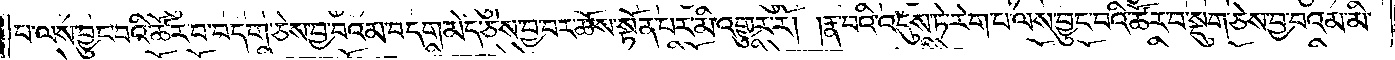པ་ལས་བྱུང་བའི་ཚོར་བ་བདག་ཅེས་བྱ་བའམ་བདག་མེད་ཅེས་བྱ་བར་ཆོས་སྟོན་པར་མི་འགྱུར་རོ། །རྣ་བའི་འདུས་ཏེ་རེག་པ་ལས་བྱུང་བའི་ཚོར་བ་སྡུག་ཅེས་བྱ་བའམ་མི་
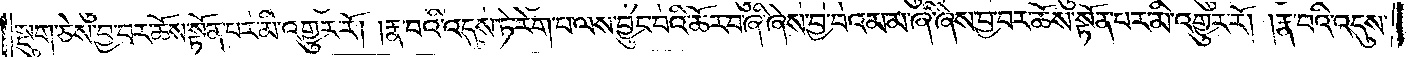སྡུག་ཅེས་བྱ་བར་ཆོས་སྟོན་པར་མི་འགྱུར་རོ། །རྣ་བའི་འདུས་ཏེ་རེག་པ་ལས་བྱུང་བའི་ཚོར་བ་ཞི་ཞེས་བྱ་བའམ་མ་ཞི་ཞེས་བྱ་བར་ཆོས་སྟོན་པར་མི་འགྱུར་རོ། །རྣ་བའི་འདུས་
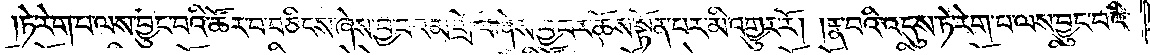ཏེ་རེག་པ་ལས་བྱུང་བའི་ཚོར་བ་བཅིངས་ཞེས་བྱ་བའམ་གྲོལ་ཞེས་བྱ་བར་ཆོས་སྟོན་པར་མི་འགྱུར་རོ། །རྣ་བའི་འདུས་ཏེ་རེག་པ་ལས་བྱུང་བའི་
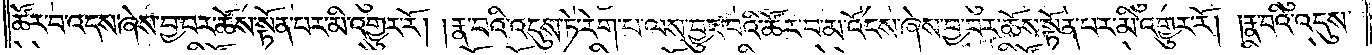ཚོར་བ་འདས་ཞེས་བྱ་བར་ཆོས་སྟོན་པར་མི་འགྱུར་རོ། །རྣ་བའི་འདུས་ཏེ་རེག་པ་ལས་བྱུང་བའི་ཚོར་བ་མ་འོངས་ཞེས་བྱ་བར་ཆོས་སྟོན་པར་མི་འགྱུར་རོ། །རྣ་བའི་འདུས་
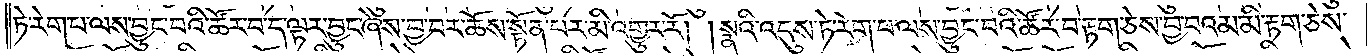ཏེ་རེག་པ་ལས་བྱུང་བའི་ཚོར་བ་ད་ལྟར་བྱུང་ཞེས་བྱ་བར་ཆོས་སྟོན་པར་མི་འགྱུར་རོ། །སྣའི་འདུས་ཏེ་རེག་པ་ལས་བྱུང་བའི་ཚོར་བ་རྟག་ཅེས་བྱ་བའམ་མི་རྟག་ཅེས་
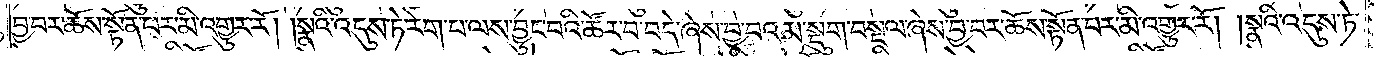བྱ་བར་ཆོས་སྟོན་པར་མི་འགྱུར་རོ། །སྣའི་འདུས་ཏེ་རེག་པ་ལས་བྱུང་བའི་ཚོར་བ་བདེ་ཞེས་བྱ་བའམ་སྡུག་བསྔལ་ཞེས་བྱ་བར་ཆོས་སྟོན་པར་མི་འགྱུར་རོ། །སྣའི་འདུས་ཏེ་
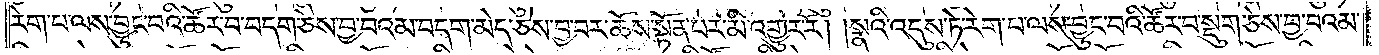རེག་པ་ལས་བྱུང་བའི་ཚོར་བ་བདག་ཅེས་བྱ་བའམ་བདག་མེད་ཅེས་བྱ་བར་ཆོས་སྟོན་པར་མི་འགྱུར་རོ། །སྣའི་འདུས་ཏེ་རེག་པ་ལས་བྱུང་བའི་ཚོར་བ་སྡུག་ཅེས་བྱ་བའམ་
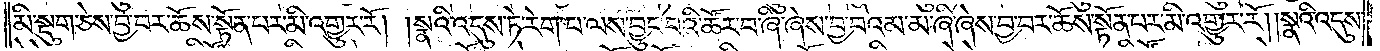མི་སྡུག་ཅེས་བྱ་བར་ཆོས་སྟོན་པར་མི་འགྱུར་རོ། །སྣའི་འདུས་ཏེ་རེག་པ་ལས་བྱུང་བའི་ཚོར་བ་ཞི་ཞེས་བྱ་བའམ་མ་ཞི་ཞེས་བྱ་བར་ཆོས་སྟོན་པར་མི་འགྱུར་རོ། །སྣའི་འདུས་
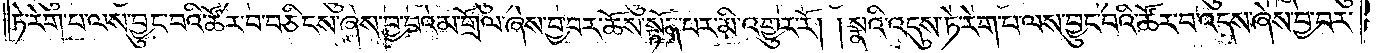ཏེ་རེག་པ་ལས་བྱུང་བའི་ཚོར་བ་བཅིངས་ཞེས་བྱ་བའམ་གྲོལ་ཞེས་བྱ་བར་ཆོས་སྟོན་པར་མི་འགྱུར་རོ། །སྣའི་འདུས་ཏེ་རེག་པ་ལས་བྱུང་བའི་ཚོར་བ་འདས་ཞེས་བྱ་བར་
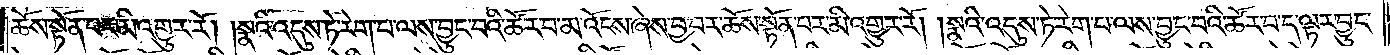ཆོས་སྟོན་པར་མི་འགྱུར་རོ། །སྣའི་འདུས་ཏེ་རེག་པ་ལས་བྱུང་བའི་ཚོར་བ་མ་འོངས་ཞེས་བྱ་བར་ཆོས་སྟོན་པར་མི་འགྱུར་རོ། །སྣའི་འདུས་ཏེ་རེག་པ་ལས་བྱུང་བའི་ཚོར་བ་ད་ལྟར་བྱུང་
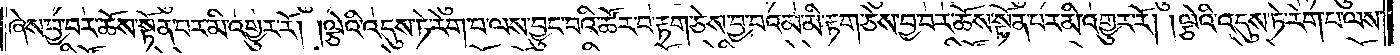ཞེས་བྱ་བར་ཆོས་སྟོན་པར་མི་འགྱུར་རོ། །ལྕེའི་འདུས་ཏེ་རེག་པ་ལས་བྱུང་བའི་ཚོར་བ་རྟག་ཅེས་བྱ་བའམ་མི་རྟག་ཅེས་བྱ་བར་ཆོས་སྟོན་པར་མི་འགྱུར་རོ། །ལྕེའི་འདུས་ཏེ་རེག་པ་ལས་
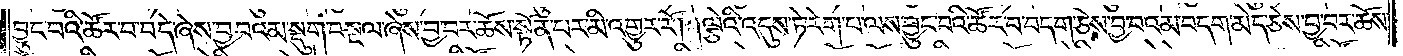བྱུང་བའི་ཚོར་བ་བདེ་ཞེས་བྱ་བའམ་སྡུག་བསྔལ་ཞེས་བྱ་བར་ཆོས་སྟོན་པར་མི་འགྱུར་རོ། །ལྕེའི་འདུས་ཏེ་རེག་པ་ལས་བྱུང་བའི་ཚོར་བ་བདག་ཅེས་བྱ་བའམ་བདག་མེད་ཅེས་བྱ་བར་ཆོས་
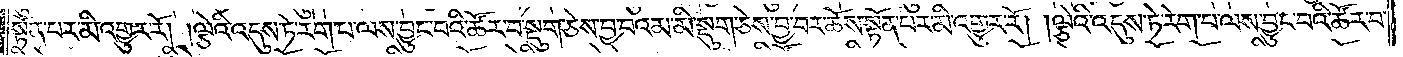སྟོན་པར་མི་འགྱུར་རོ། །ལྕེའི་འདུས་ཏེ་རེག་པ་ལས་བྱུང་བའི་ཚོར་བ་སྡུག་ཅེས་བྱ་བའམ་མི་སྡུག་ཅེས་བྱ་བར་ཆོས་སྟོན་པར་མི་འགྱུར་རོ། །ལྕེའི་འདུས་ཏེ་རེག་པ་ལས་བྱུང་བའི་ཚོར་བ་
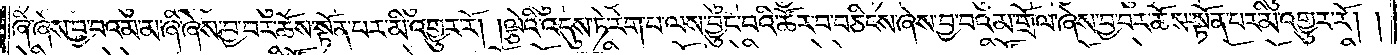ཞི་ཞེས་བྱ་བའམ་མ་ཞི་ཞེས་བྱ་བར་ཆོས་སྟོན་པར་མི་འགྱུར་རོ། །ལྕེའི་འདུས་ཏེ་རེག་པ་ལས་བྱུང་བའི་ཚོར་བ་བཅིངས་ཞེས་བྱ་བའམ་གྲོལ་ཞེས་བྱ་བར་ཆོས་སྟོན་པར་མི་འགྱུར་རོ། །
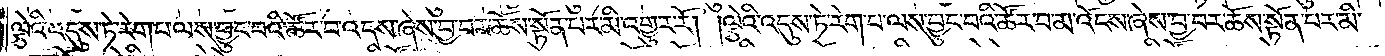ལྕེའི་འདུས་ཏེ་རེག་པ་ལས་བྱུང་བའི་ཚོར་བ་འདས་ཞེས་བྱ་བར་ཆོས་སྟོན་པར་མི་འགྱུར་རོ། །ལྕེའི་འདུས་ཏེ་རེག་པ་ལས་བྱུང་བའི་ཚོར་བ་མ་འོངས་ཞེས་བྱ་བར་ཆོས་སྟོན་པར་མི་
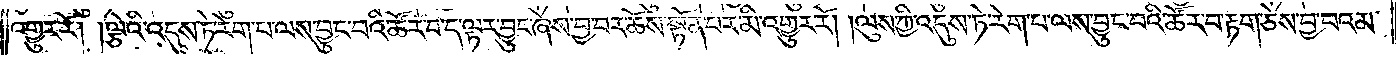འགྱུར་རོ། །ལྕེའི་འདུས་ཏེ་རེག་པ་ལས་བྱུང་བའི་ཚོར་བ་ད་ལྟར་བྱུང་ཞེས་བྱ་བར་ཆོས་སྟོན་པར་མི་འགྱུར་རོ། །ལུས་ཀྱི་འདུས་ཏེ་རེག་པ་ལས་བྱུང་བའི་ཚོར་བ་རྟག་ཅེས་བྱ་བའམ་
